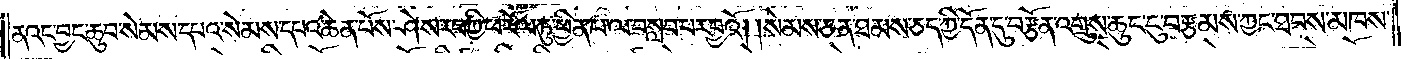ནའང་བྱང་ཆུབ་སེམས་དཔའ་སེམས་དཔའ་ཆེན་པོས་ཤེས་རབ་ཀྱི་ཕ་རོལ་ཏུ་ཕྱིན་པ་ལ་བསླབ་པར་བྱའོ༎  སེམས་ཅན་ཐམས་ཅད་ཀྱི་དོན་དུ་བརྩོན་འགྲུས་ཆུང་ངུ་བརྩམས་ཀྱང་ཐབས་མཁས་
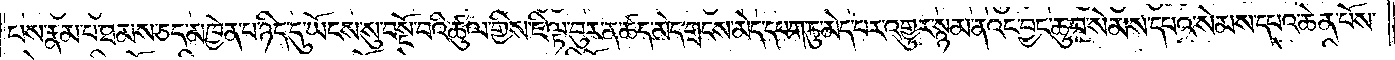པས་རྣམ་པ་ཐམས་ཅད་མཁྱེན་པ་ཉིད་དུ་ཡོངས་སུ་བསྔོ་བའི་ཚུལ་གྱིས་ཇི་ལྟ་བུར་ན་ཚད་མེད་གྲངས་མེད་དཔག་ཏུ་མེད་པར་འགྱུར་སྙམ་ནའང་བྱང་ཆུབ་སེམས་དཔའ་སེམས་དཔའ་ཆེན་པོས་
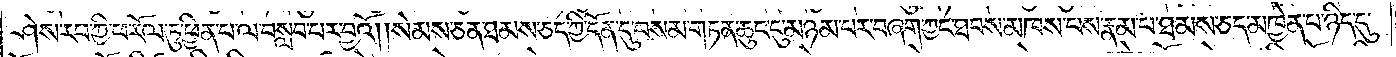ཤེས་རབ་ཀྱི་ཕ་རོལ་ཏུ་ཕྱིན་པ་ལ་བསླབ་པར་བྱའོ༎ སེམས་ཅན་ཐམས་ཅན་གྱི་དོན་དུ་བསམ་གཏན་ཆུང་ངུ་མཉམ་པར་བཞག་ཀྱང་ཐབས་མཁས་པས་རྣམ་པ་ཐམས་ཅད་མཁྱེན་པ་ཉིད་དུ་
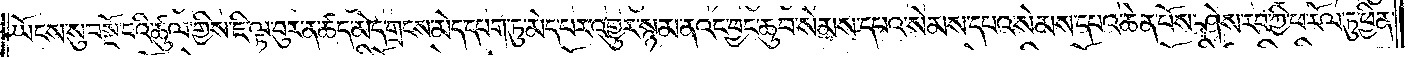ཡོངས་སུ་བསྔོ་བའི་ཚུལ་གྱིས་ཇི་ལྟ་བུར་ན་ཚད་མེད་གྲངས་མེད་དཔག་ཏུ་མེད་པར་འགྱུར་སྙམ་ནའང་བྱང་ཆུབ་སེམས་དཔའ་སེམས་དཔའ་ཆེན་པོས་ཤེས་རབ་ཀྱི་ཕ་རོལ་ཏུ་ཕྱིན་
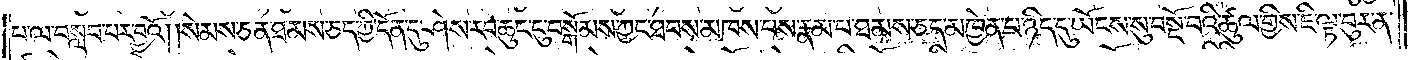པ་ལ་བསླབ་པར་བྱའོ། །སེམས་ཅན་ཐམས་ཅད་ཀྱི་དོན་དུ་ཤེས་རབ་ཆུང་ངུ་བསྒོམས་ཀྱང་ཐབས་མཁས་པས་རྣམ་པ་ཐམས་ཅད་མཁྱེན་པ་ཉིད་དུ་བསྔོས་པའི་ཚུལ་གྱིས་ཇི་ལྟ་བུར་ན་
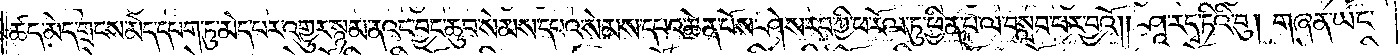ཚད་མེད་གྲངས་མེད་དཔག་ཏུ་མེད་པར་འགྱུར་སྙམ་ནའང་བྱང་ཆུབ་སེམས་དཔའ་སེམས་དཔའ་ཆེན་པོས་ཤེས་རབ་ཀྱི་ཕ་རོལ་ཏུ་ཕྱིན་པ་ལ་བསླབ་པར་བྱའོ། ། ཤཱ་ར་དྭ་ཏིའི་བུ།  གཞན་ཡང་
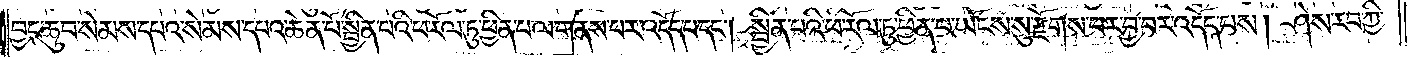བྱང་ཆུབ་སེམས་དཔའ་སེམས་དཔའ་ཆེན་པོ་སྦྱིན་པའི་ཕ་རོལ་ཏུ་ཕྱིན་པ་ལ་གནས་པར་འདོད་པ་དང་།  སྦྱིན་པའི་ཕ་རོལ་ཏུ་ཕྱིན་པ་ཡོངས་སུ་རྫོགས་པར་བྱ་བར་འདོད་པས།  ཤེས་རབ་ཀྱི་
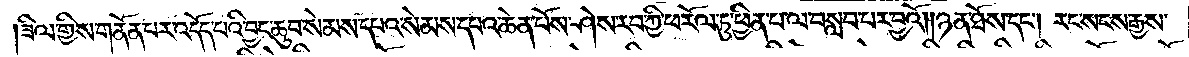ཟིལ་གྱིས་གནོན་པར་འདོད་པའི་བྱང་ཆུབ་སེམས་དཔའ་སེམས་དཔའ་ཆེན་པོས་ཤེས་རབ་ཀྱི་ཕ་རོལ་ཏུ་ཕྱིན་པ་ལ་བསླབ་པར་བྱའོ། ། ཉན་ཐོས་དང་།  རང་སངས་རྒྱས་
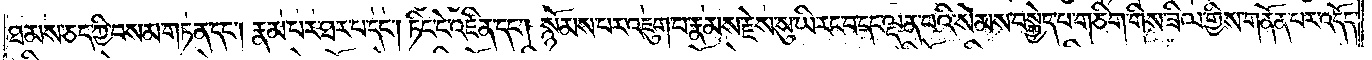ཐམས་ཅད་ཀྱི་བསམ་གཏན་དང༌། རྣམ་པར་ཐར་པ་དང༌། ཏིང་ངེ་འཛིན་དང༌། སྙོམས་པར་འཇུག་པ་རྣམས་རྗེས་སུ་ཡི་རང་བ་དང་ལྡན་པའི་སེམས་བསྐྱེད་པ་གཅིག་གིས་ཟིལ་གྱིས་གནོན་པར་འདོད་
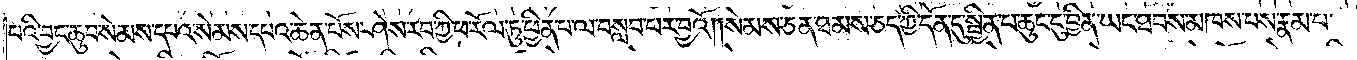པའི་བྱང་ཆུབ་སེམས་དཔའ་སེམས་དཔའ་ཆེན་པོས་ཤེས་རབ་ཀྱི་ཕ་རོལ་ཏུ་ཕྱིན་པ་ལ་བསླབ་པར་བྱའོ། །སེམས་ཅན་ཐམས་ཅད་ཀྱི་དོན་དུ་སྦྱིན་པ་ཆུང་ངུ་བྱིན་ཡང་ཐབས་མཁས་པས་རྣམ་པ་
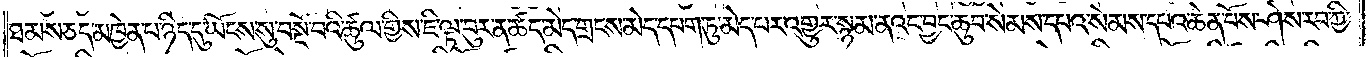ཐམས་ཅན་མཁྱེན་པ་ཉིད་དུ་ཡོངས་སུ་བསྔོ་བའི་ཚུལ་གྱིས་ཇི་ལྟ་བུར་ན་ཚད་མེད་གྲངས་མེད་དཔག་ཏུ་མེད་པར་འགྱུར་སྙམ་ནའང་བྱང་ཆུབ་སེམས་དཔའ་སེམས་དཔའ་སེམས་དཔའ་ཆེན་པོས་ཤེས་རབ་ཀྱི་
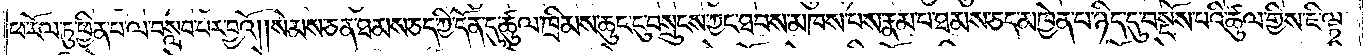ཕ་རོལ་ཏུ་ཕྱིན་པ་ལ་བསླབ་པར་བྱའོ། །སེམས་ཅན་ཐམས་ཅད་ཀྱི་དོན་དུ་ཚུལ་ཁྲིམས་ཆུང་ངུ་བསྲུངས་ཀྱང་ཐབས་མཁས་པས་རྣམ་པ་ཐམས་ཅད་མཁྱེན་པ་ཉིད་དུ་ཡོངས་སུ་བསྔོས་པའི་ཚུལ་གྱིས་ཇི་ལྟ་
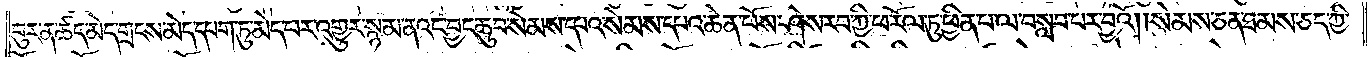བུར་ན་ཚད་མེད་གྲངས་མེད་དཔག་ཏུ་མེད་པར་འགྱུར་སྙམ་ནའང་བྱང་ཆུབ་སེམས་དཔའ་སེམས་དཔའ་ཆེན་པོས་ཤེས་རབ་ཀྱི་ཕ་རོལ་ཏུ་ཕྱིན་པ་ལ་བསླབ་པར་བྱའོ༎ སེམས་ཅན་ཐམས་ཅན་གྱི་
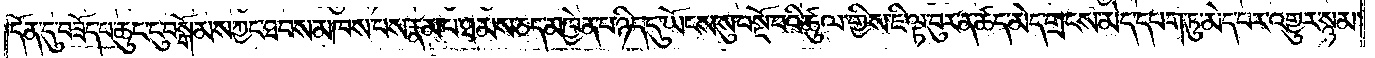དོན་དུ་བཟོད་པ་ཆུང་ངུ་བསྒོམས་ཀྱང་ཐབས་མཁས་པས་རྣམ་པ་ཐམས་ཅད་མཁྱེན་པ་ཉིད་དུ་ཡོངས་སུ་བསྔོ་བའི་ཚུལ་གྱིས་ཇི་ལྟ་བུར་ན་ཚད་མེད་གྲངས་མེད་དཔག་ཏུ་མེད་པར་འགྱུར་སྙམ་
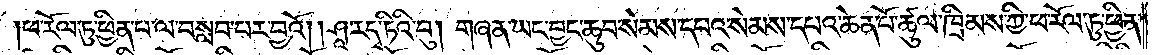ཕ་རོལ་ཏུ་ཕྱིན་པ་ལ་བསླབ་པར་བྱའོ། །ཤཱ་ར་དྭ་ཏིའི་བུ། གཞན་ཡང་བྱང་ཆུབ་སེམས་དཔའ་སེམས་དཔའ་ཆེན་པོ་ཚུལ་ཁྲིམས་ཀྱི་ཕ་རོལ་ཏུ་ཕྱིན་
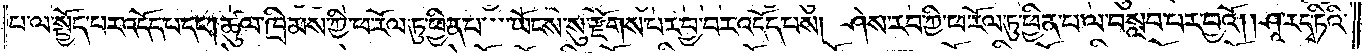པ་ལ་སྤྱོད་པར་འདོད་པ་དང༌། ཚུལ་ཁྲིམས་ཀྱི་ཕ་རོལ་ཏུ་ཕྱིན་པ་ཡོངས་སུ་རྫོགས་པར་བྱ་བར་འདོད་པས། ཤེས་རབ་ཀྱི་ཕ་རོལ་ཏུ་ཕྱིན་པ་ལ་བསླབ་པར་བྱའོ། །ཤཱ་ར་དྭ་ཏིའི་
